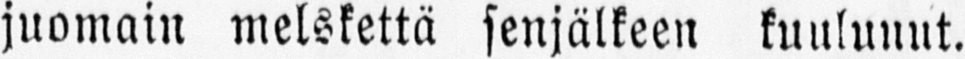juomain melskettä senjälkeen kuulunut.
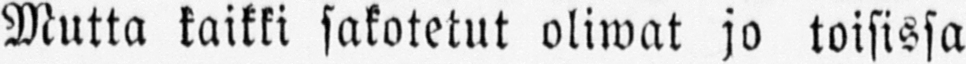Mutta kaikki sakotetut oliwat jo toisissa
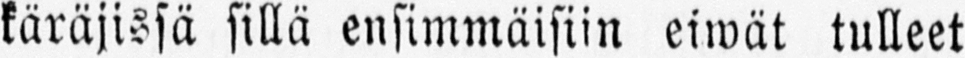käräjissä sillä ensimmäisiin eiwät tulleet
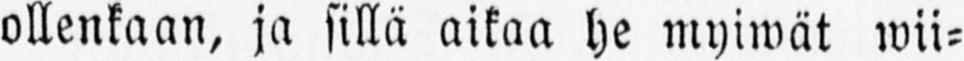ollenkaan, ja sillä aikaa he myiwät wii-
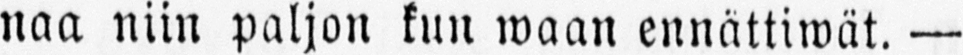naa niin paljon kun waan ennättiwät. —
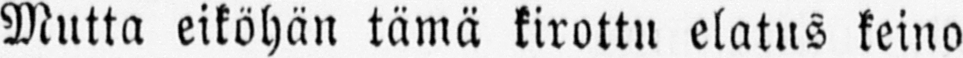Mutta eiköhän tämä kirottu elatus keino
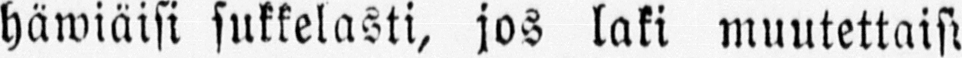häwiäisi sukkelasti, jos laki muutettaisi
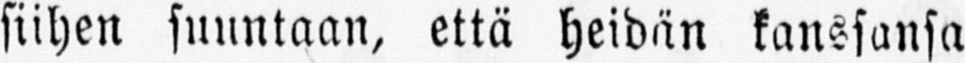siihen suuntaan, että heidän kanssansa
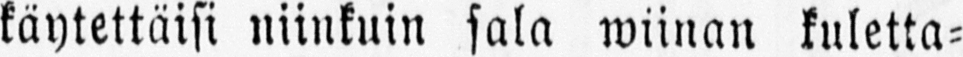käytettäisi niinkuin sala wiinan kuletta-
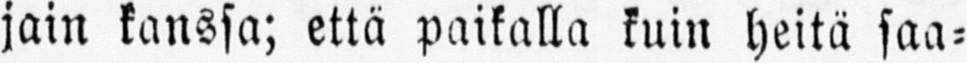jain kanssa; että paikalla kuin heitä saa-
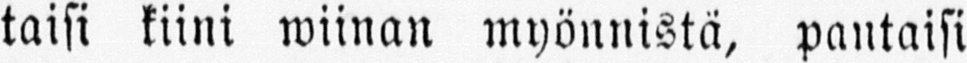taisi kiini wiinan myönnistä, pantaisi
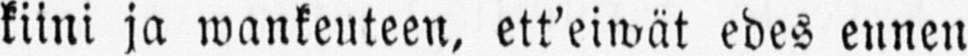kiini ja wankeuteen, ett'eiwät edes ennen
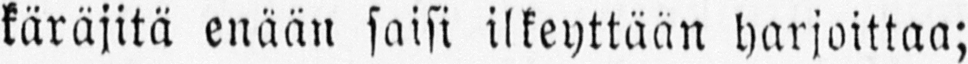käräjitä enään saisi ilkeyttään harjoittaa;
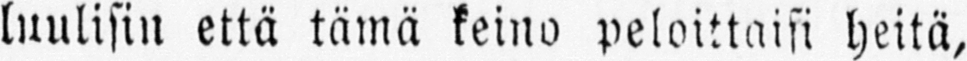luulisin että tämä keino peloittaisi heitä,
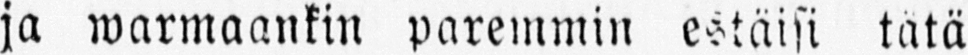ja warmaankin paremmin estäisi tätä
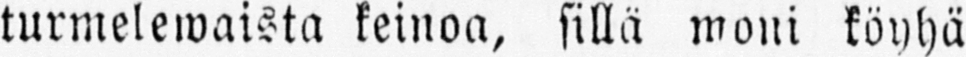turmelewaista keinoa, sillä moni köyhä
